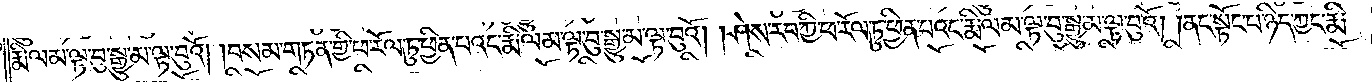རྨི་ལམ་ལྟ་བུ་སྒྱུ་མ་ལྟ་བུའོ། །བསམ་གཏན་གྱི་ཕ་རོལ་ཏུ་ཕྱིན་པའང་རྨི་ལམ་ལྟ་བུ་སྒྱུ་མ་ལྟ་བུའོ། །ཤེས་རབ་ཀྱི་ཕ་རོལ་ཏུ་ཕྱིན་པའང་རྨི་ལམ་ལྟ་བུ་སྒྱུ་མ་ལྟ་བུའོ། །ནང་སྟོང་པ་ཉིད་ཀྱང་རྨི་
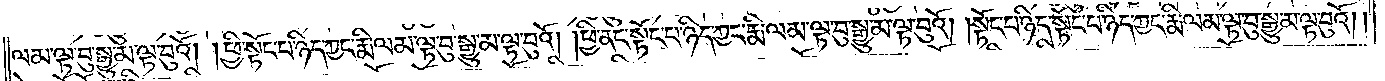ལམ་ལྟ་བུ་སྒྱུ་མ་ལྟ་བུའོ། །ཕྱི་སྟོང་པ་ཉིད་ཀྱང་རྨི་ལམ་ལྟ་བུ་སྒྱུ་མ་ལྟ་བུའོ། །ཕྱི་ནང་སྟོང་པ་ཉིད་ཀྱང་རྨི་ལམ་ལྟ་བུ་སྒྱུ་མ་ལྟ་བུའོ། །སྟོང་པ་ཉིད་སྟོང་པ་ཉིད་ཀྱང་རྨི་ལམ་ལྟ་བུ་སྒྱུ་མ་ལྟ་བུའོ། །
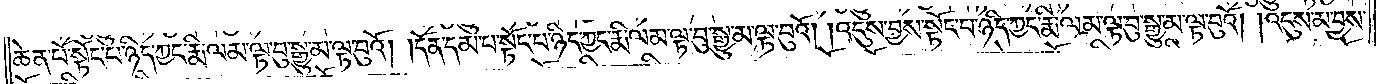ཆེན་པོ་སྟོང་པ་ཉིད་ཀྱང་རྨི་ལམ་ལྟ་བུ་སྒྱུ་མ་ལྟ་བུའོ། །དོན་དམ་པ་སྟོང་པ་ཉིད་ཀྱང་རྨི་ལམ་ལྟ་བུ་སྒྱུ་མ་ལྟ་བུའོ། །འདུས་བྱས་སྟོང་པ་ཉིད་ཀྱང་རྨི་ལམ་ལྟ་བུ་སྒྱུ་མ་ལྟ་བུའོ། །འདུས་མ་བྱས་
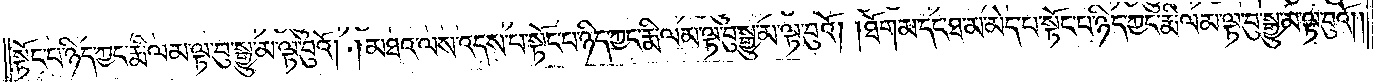སྟོང་པ་ཉིད་ཀྱང་རྨི་ལམ་ལྟ་བུ་སྒྱུ་མ་ལྟ་བུའོ། །མཐའ་ལས་འདས་པ་སྟོང་པ་ཉིད་ཀྱང་རྨི་ལམ་ལྟ་བུ་སྒྱུ་མ་ལྟ་བུའོ། །ཐོག་མ་དང་ཐ་མ་མེད་པ་སྟོང་པ་ཉིད་ཀྱང་རྨི་ལམ་ལྟ་བུ་སྒྱུ་མ་ལྟ་བུའོ། །
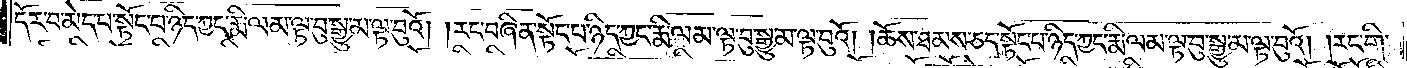དོར་བ་མེད་པ་སྟོང་པ་ཉིད་ཀྱང་རྨི་ལམ་ལྟ་བུ་སྒྱུ་མ་ལྟ་བུའོ། །རང་བཞིན་སྟོང་པ་ཉིད་ཀྱང་རྨི་ལམ་ལྟ་བུ་སྒྱུ་མ་ལྟ་བུའོ། །ཆོས་ཐམས་ཅད་སྟོང་པ་ཉིད་ཀྱང་རྨི་ལམ་ལྟ་བུ་སྒྱུ་མ་ལྟ་བུའོ། །རང་གི་
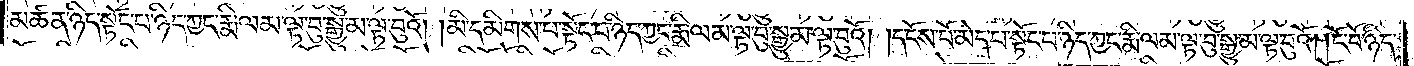མཚན་ཉིད་སྟོང་པ་ཉིད་ཀྱང་རྨི་ལམ་ལྟ་བུ་སྒྱུ་མ་ལྟ་བུའོ། །མི་དམིགས་པ་སྟོང་པ་ཉིད་ཀྱང་རྨི་ལམ་ལྟ་བུ་སྒྱུ་མ་ལྟ་བུའོ། །དངོས་པོ་མེད་པ་སྟོང་པ་ཉིད་ཀྱང་རྨི་ལམ་ལྟ་བུ་སྒྱུ་མ་ལྟ་བུའོ། །ངོ་བོ་ཉིད་
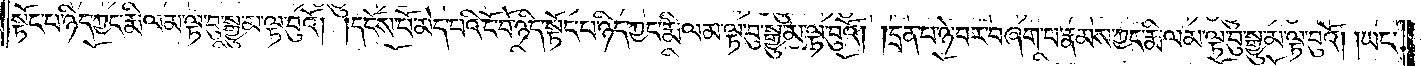སྟོང་པ་ཉིད་ཀྱང་རྨི་ལམ་ལྟ་བུ་སྒྱུ་མ་ལྟ་བུའོ། །དངོས་པོ་མེད་པའི་ངོ་བོ་ཉིད་སྟོང་པ་ཉིད་ཀྱང་རྨི་ལམ་ལྟ་བུ་སྒྱུ་མ་ལྟ་བུའོ། དྲན་པ་ཉེ་བར་བཞག་པ་རྣམས་ཀྱང་རྨི་ལམ་ལྟ་བུ་སྒྱུ་མ་ལྟ་བུའོ། །ཡང་
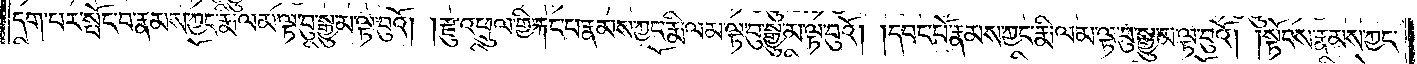དག་པར་སྤོང་བ་རྣམས་ཀྱང་རྨི་ལམ་ལྟ་བུ་སྒྱུ་མ་ལྟ་བུའོ། །རྫུ་འཕྲུལ་གྱི་རྐང་པ་རྣམས་ཀྱང་རྨི་ལམ་ལྟ་བུ་སྒྱུ་མ་ལྟ་བུའོ། །དབང་པོ་རྣམས་ཀྱང་རྨི་ལམ་ལྟ་བུ་སྒྱུ་མ་ལྟ་བུའོ། །སྟོབས་རྣམས་ཀྱང་
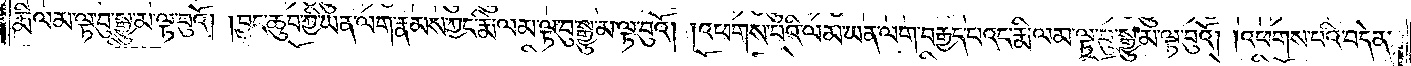རྨི་ལམ་ལྟ་བུ་སྒྱུ་མ་ལྟ་བུའོ། །བྱང་ཆུབ་ཀྱི་ཡན་ལག་རྣམས་ཀྱང་རྨི་ལམ་ལྟ་བུ་སྒྱུ་མ་ལྟ་བུའོ། །འཕགས་པའི་ལམ་ཡན་ལག་བརྒྱད་པའང་རྨི་ལམ་ལྟ་བུ་སྒྱུ་མ་ལྟ་བུའོ། །འཕགས་པའི་བདེན་
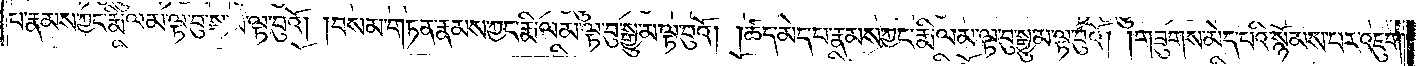པ་རྣམས་ཀྱང་རྨི་ལམ་ལྟ་བུ་སྒྱུ་མ་ལྟ་བུའོ། །བསམ་གཏན་རྣམས་ཀྱང་རྨི་ལམ་ལྟ་བུ་སྒྱུ་མ་ལྟ་བུའོ། །ཚད་མེད་པ་རྣམས་ཀྱང་རྨི་ལམ་ལྟ་བུ་སྒྱུ་མ་ལྟ་བུའོ། །གཟུགས་མེད་པའི་སྙོམས་པར་འཇུག་
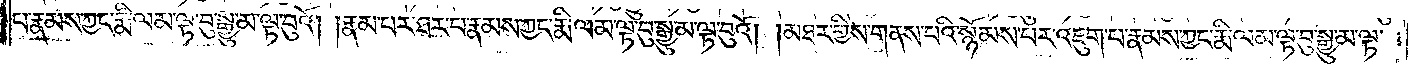པ་རྣམས་ཀྱང་རྨི་ལམ་ལྟ་བུ་སྒྱུ་མ་ལྟ་བུའོ། །རྣམ་པར་ཐར་པ་རྣམས་ཀྱང་རྨི་ལམ་ལྟ་བུ་སྒྱུ་མ་ལྟ་བུའོ། །མཐར་གྱིས་གནས་པའི་སྙོམས་པར་འཇུག་པ་རྣམས་ཀྱང་རྨི་ལམ་ལྟ་བུ་སྒྱུ་མ་ལྟ་
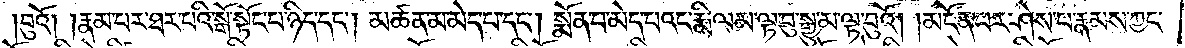བུའོ། །རྣམ་པར་ཐར་པའི་སྒོ་སྟོང་པ་ཉིད་དང༌། མཚན་མ་མེད་པ་དང༌། སྨོན་པ་མེད་པའང་རྨི་ལམ་ལྟ་བུ་སྒྱུ་མ་ལྟ་བུའོ། །མངོན་པར་ཤེས་པ་རྣམས་ཀྱང་
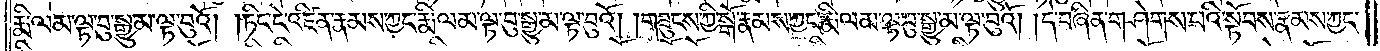རྨི་ལམ་ལྟ་བུ་སྒྱུ་མ་ལྟ་བུའོ། །ཏིང་ངེ་འཛིན་རྣམས་ཀྱང་རྨི་ལམ་ལྟ་བུ་སྒྱུ་མ་ལྟ་བུའོ། །གཟུངས་ཀྱི་སྒོ་རྣམས་ཀྱང་རྨི་ལམ་ལྟ་བུ་སྒྱུ་མ་ལྟ་བུའོ། །དེ་བཞིན་གཤེགས་པའི་སྟོབས་རྣམས་ཀྱང་
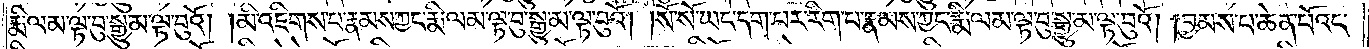རྨི་ལམ་ལྟ་བུ་སྒྱུ་མ་ལྟ་བུའོ། །མི་འཇིགས་པ་རྣམས་ཀྱང་རྨི་ལམ་ལྟ་བུ་སྒྱུ་མ་ལྟ་བུའོ། །སོ་སོ་ཡང་དག་པར་རིག་པ་རྣམས་ཀྱང་རྨི་ལམ་ལྟ་བུ་སྒྱུ་མ་ལྟ་བུའོ། །བྱམས་པ་ཆེན་པོའང་
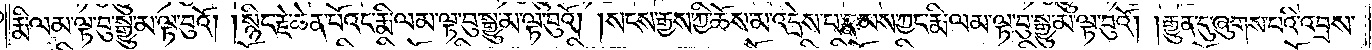རྨི་ལམ་ལྟ་བུ་སྒྱུ་མ་ལྟ་བུའོ། །སྙིང་རྗེ་ཆེན་པོའང་རྨི་ལམ་ལྟ་བུ་སྒྱུ་མ་ལྟ་བུའོ། །སངས་རྒྱས་ཀྱི་ཆོས་མ་འདྲེས་པ་རྣམས་ཀྱང་རྨི་ལམ་ལྟ་བུ་སྒྱུ་མ་ལྟ་བུའོ། །རྒྱུན་དུ་ཞུགས་པའི་འབྲས་
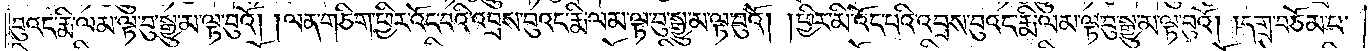བུའང་རྨི་ལམ་ལྟ་བུ་སྒྱུ་མ་ལྟ་བུའོ། །ལན་ཅིག་ཕྱིར་འོང་བའི་འབྲས་བུའང་རྨི་ལམ་ལྟ་བུ་སྒྱུ་མ་ལྟ་བུའོ། ཕྱིར་མི་འོང་བའི་འབྲས་བུའང་རྨི་ལམ་ལྟ་བུ་སྒྱུ་མ་ལྟ་བུའོ། །དགྲ་བཅོམ་པ་
